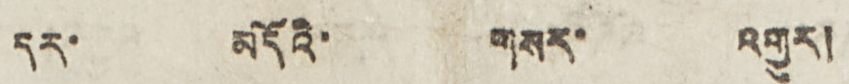དར་ མདོའི་ གསར་ འགྱུར།
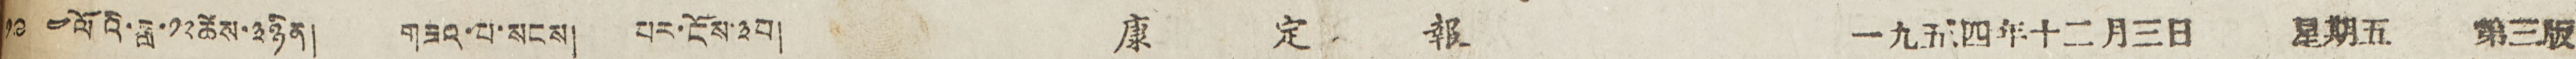༡༩༥༤ལོའི་ཟླ་༡༢ཚེས་༣ཉིན། གཟའ་པ་སངས། པར་ངོས་༣པ། 康 定 報 一九五四年十二月三日 星期五 第三版
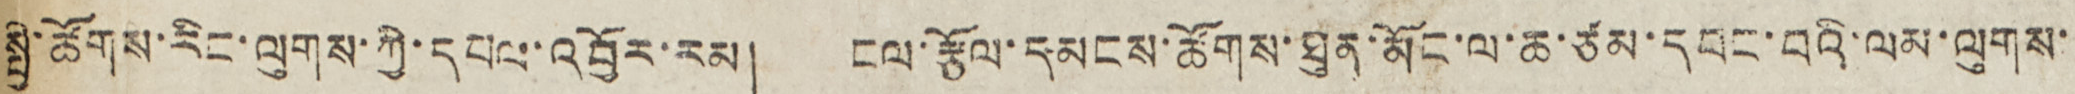སྤྱི་ཚོགས་རིང་ལུགས་ཀྱི་དཔལ་འབྱོར་རམ། ངལ་རྩོལ་དམངས་ཚོགས་ཐུན་མོང་ལ་ཆ་ཙམ་དབང་བའི་ལམ་ལུགས་
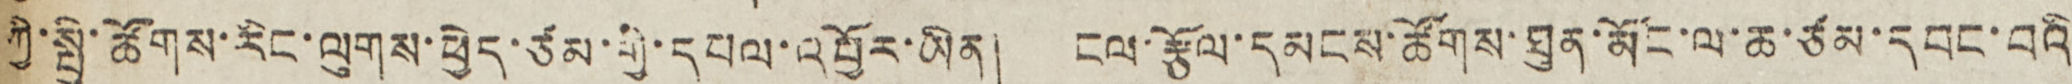ཀྱི་སྤྱི་ཚོགས་རིང་ལུགས་ཕྱེད་ཙམ་གྱི་དཔལ་འབྱོར་ཡིན། ངལ་རྩོལ་དམངས་ཚོགས་ཐུན་མོང་ལ་ཆ་ཙམ་དབང་བའི
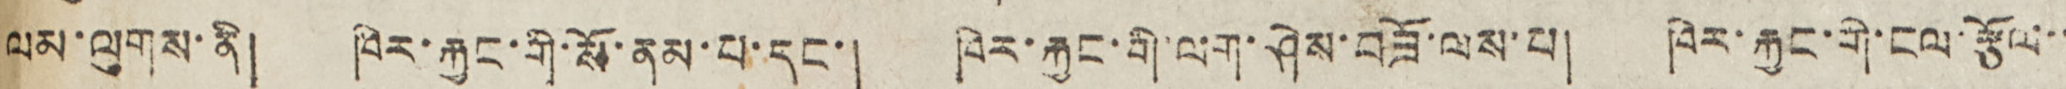ལམ་ལུགས་ནི། ཁེར་རྐྱང་གི་སོ་ནམ་པ་དང་། ཁེར་རྐྱང་གི་ལག་ཤེས་བཟོ་ལས་པ། ཁེར་རྐྱང་གི་ངལ་རྩོལ་་
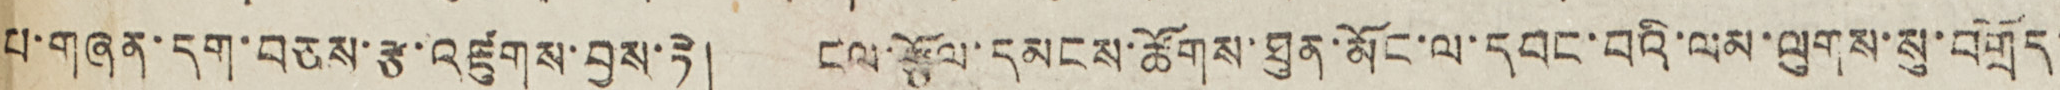པ་གཞན་དག་བཅས་རྩ་འཛུགས་བྱས་ཏེ། ངལ་རྩོལ་དམངས་ཚོགས་ཐུན་མོང་ལ་དབང་བའི་ལམ་ལུགས་སུ་བགྲོད་
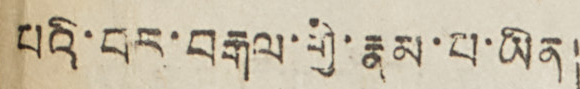པའི་བར་བརྒལ་གྱི་རྣམ་པ་ཡིན།
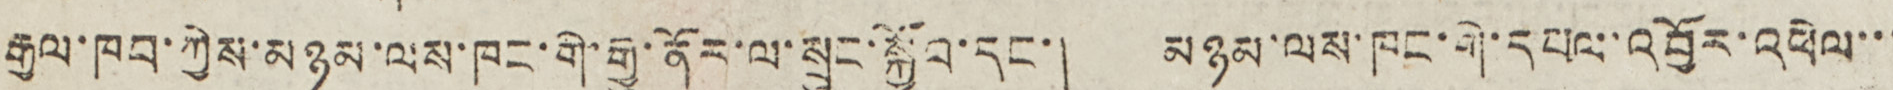རྒྱལ་ཁབ་ཀྱིས་མཉམ་ལས་ཁང་གི་རྒྱུ་ནོར་ལ་སྲུང་སྐྱོབ་དང་། མཉམ་ལས་ཁང་གི་དཔལ་འབྱོར་འཕེལ་་་
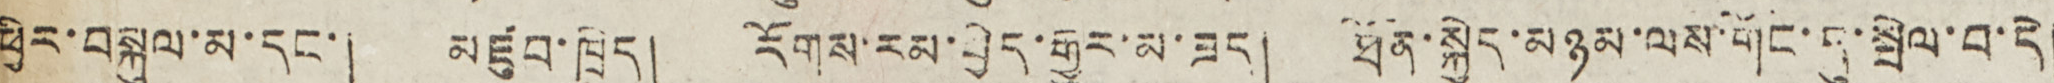ཕྱིར་བསྐུལ་མ་དང་། མཛུབ་ཁྲིད། རོགས་རམ་བྱེད་རྒྱུར་མ་ཟད། ཐོན་སྐྱེད་མཉམ་ལས་གོང་དུ་སྤེལ་བ་དེ།
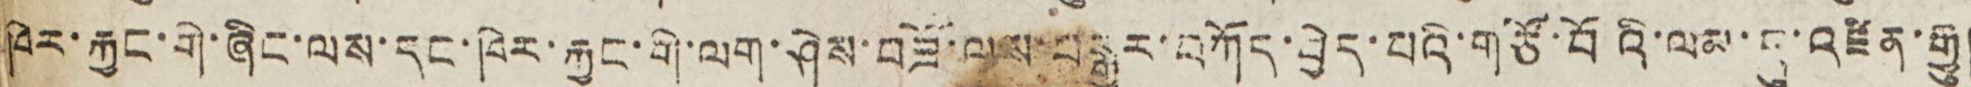ཁེར་རྐྱང་གི་ཞིང་ལས་དང་ཁེར་རྐྱང་གི་ལག་ཤེས་བཟོ་ལས་བསྒྱུར་བཀོད་བྱེད་པའི་གཙོ་བོའི་ལམ་དུ་འཛིན་རྒྱུ།
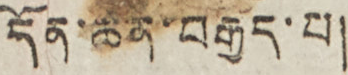དོན་ཚན་བརྒྱད་པ།
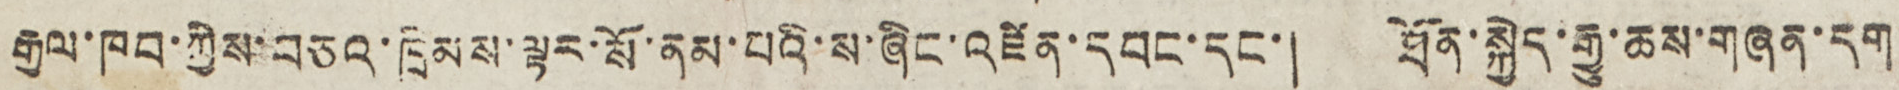རྒྱལ་ཁབ་ཀྱིས་བཅའ་ཁྲིམས་ལྟར་སོ་ནམ་པའི་ས་ཞིང་འཛིན་དབང་དང་། ཐོན་སྐྱེད་རྒྱུ་ཆས་གཞན་དག་
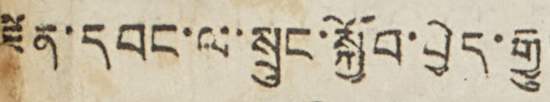འཛིན་དབང་ལ་སྲུང་སྐྱོབ་བྱེད་རྒྱུ།
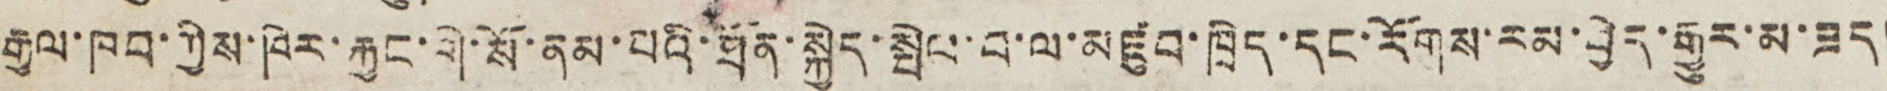རྒྱལ་ཁབ་ཀྱིས་ཁེར་རྐྱང་གི་སོ་ནམ་པའི་ཐོན་སྐྱེད་སྤེཔ་བ་ལ་མཛུབ་ཁྲེད་དང་རོགས་རམ་བྱེད་རྒྱུར་མ་ཟད།
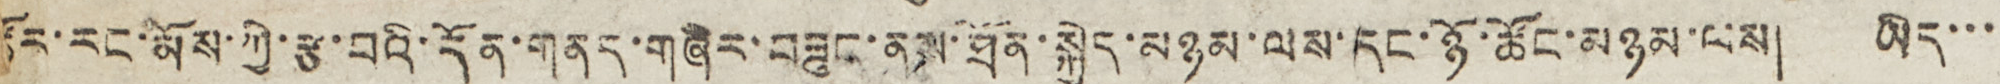ར་རང་མོས་ཀྱི་རྩ་བའི་དོན་གནད་གཞེར་བཟུང་ནས་ཐོན་སྐྱེད་མཉམ་ལས་དང་ཉོ་ཚོང་མཉམ་ལས། ཡིད་་་
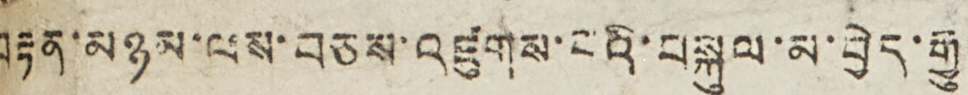བརྟན་མཉམ་ལས་བཅས་འཛུགས་པའི་བསྐུལ་མ་བྱེད་རྒྱུ།
